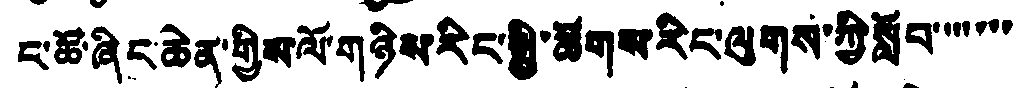ང་ཚོ་ཞིང་ཆེན་གྱིས་ལོ་གཉིས་རིང་སྤྱི་ཚོགས་རིང་ལུགས་ཀྱི་སློབ་་་་་་
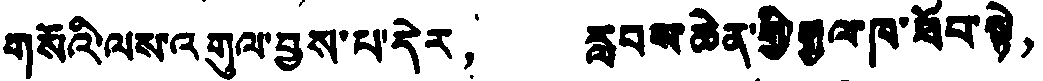གསོའི་ལས་འགུལ་བྱས་པ་དེར， རླབས་ཆེན་གྱི་རྒྱལ་ཁ་ཐོབ་སྟེ，
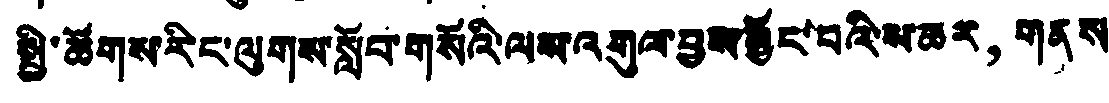སྤྱི་ཚོགས་རིང་ལུགས་སློབ་གསོའི་ལས་འགུལ་བྱས་མྱོང་བའི་མཆར， གནས
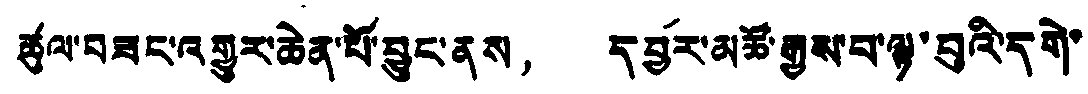ཚུལ་བཟང་འགྱུར་ཆེན་པོ་བྱུང་ནས， དབྱོར་མཚོ་རྒྱུས་པ་ལྟ་བུའི་དགེ་
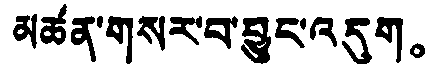མཚན་གསར་བ་བྱུང་འདུག。
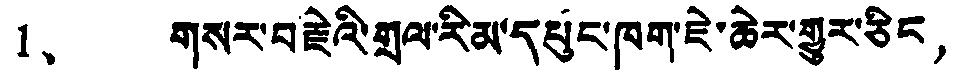1、 གསར་བརྗེའི་གྲལ་རིམ་དཔུང་ཁག་ཇེ་ཆེར་གྱུར་ཅིང，
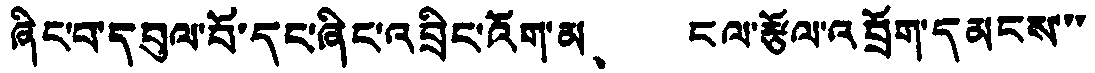ཞིང་བ་དབུལ་བོ་དང་ཞིང་འབྲིང་འོག་མ、 ངལ་རྩོལ་འབྲོག་དམངས་་་
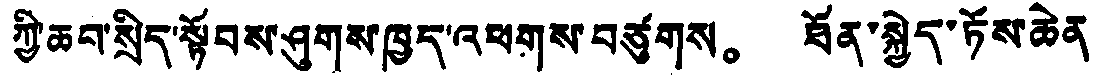ཀྱི་ཆབ་སྲིད་སྟོབས་ཤུགས་ཁྱད་འཕགས་བཙུགས。 ཐོན་སྐྱེད་ཏོས་ཆེན
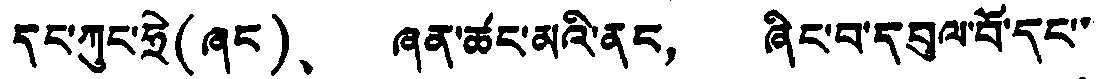དང་ཀུང་ཧྲེ(ཞང)、 ཞན་ཚང་མའི་ནང， ཞིང་བ་དབུལ་བོ་དང་་
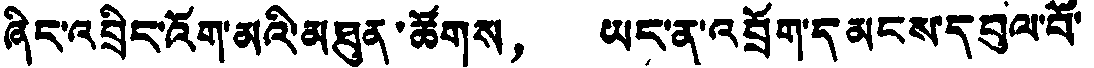ཞིང་འབྲིང་འོག་མའི་མཐུན་ཚོགས， ཡང་ན་འབྲོག་དམངས་དབུལ་པོ་
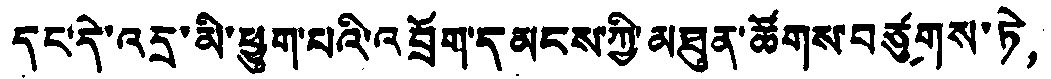དང་དེ་འདྲ་མི་ཕྱུག་པའི་འབྲོག་དམངས་ཀྱི་མཐུན་ཚོགས་བཙུགས་ཏེ，
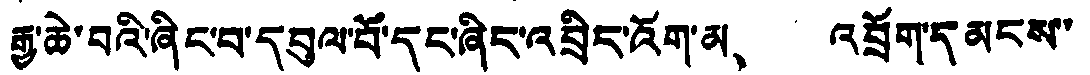རྒྱ་ཆེ་བའི་ཞིང་བ་དབུལ་བོ་དང་ཞིང་འབྲིང་འོག་མ、 འབྲོག་དམངས་་
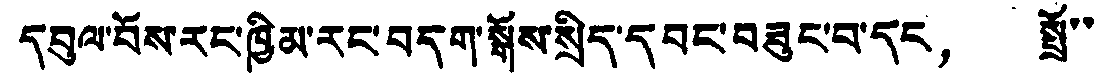དབུལ་བོས་རང་ཁྱིམ་རང་བདག་སྒོས་སྲིད་དབང་བཟུང་བ་དང， སྤྲོ་་
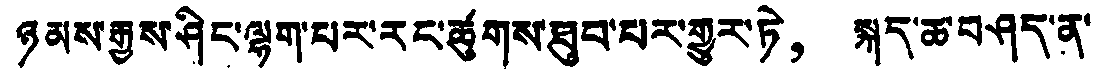ཉམས་རྒྱས་ཤིང་ལྷག་པར་རང་ཚུགས་ཐུབ་པར་གྱུར་ཏེ， སྐད་ཆ་བཤད་ན་
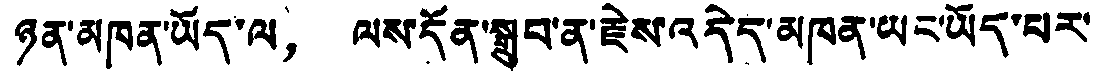ཉན་མཁན་ཡོད་ལ， ལས་དོན་སྒྲུབ་ན་རྗེས་འདེད་མཁན་ཡང་ཡོད་པར་
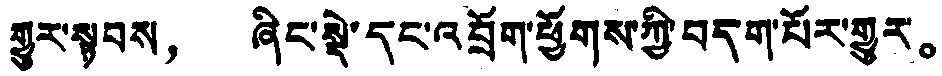གྱུར་སྟབས， ཞིང་སྡེ་དང་འབྲོག་ཕྱོགས་ཀྱི་བདག་པོར་གྱུར。
